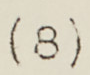(8)
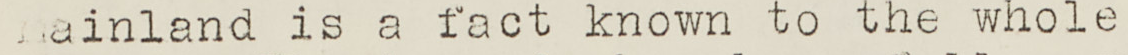mainland is a fact known to the whole
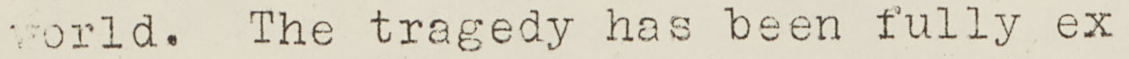world. The tragedy has been fully ex
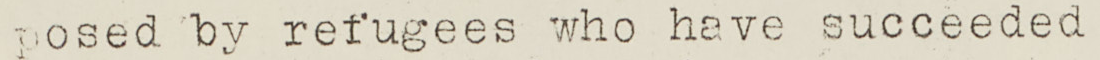posed by refugees who have succeeded
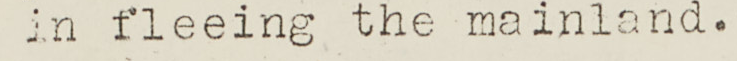in fleeing the mainland.
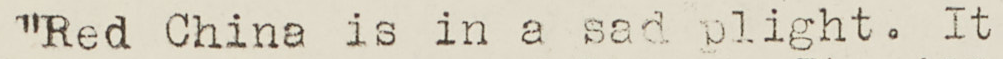"Red China is in a sad plight. It
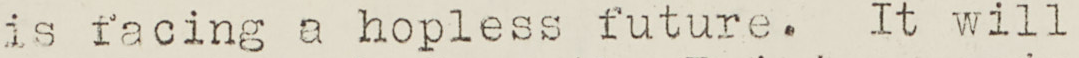is facing a hopless future. It will
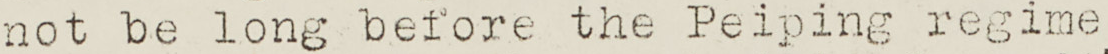not be long before the Peiping regime
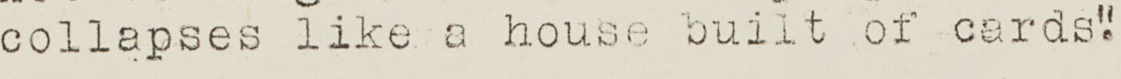collapses like a house built of cards".
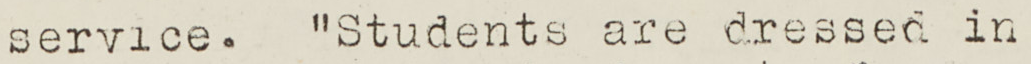service. "Students are dressed in
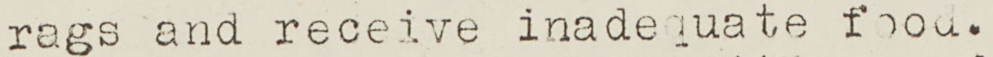rags and receive inadequate food.
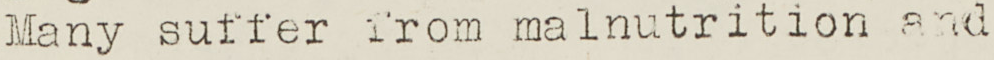Many suffer from malnutrition and
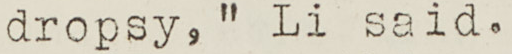dropsy," Li said.
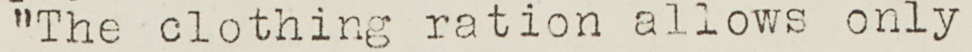"The clothing ration allows only
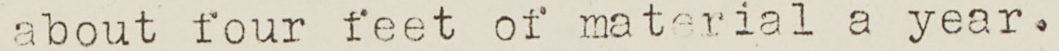about four feet of material a year.
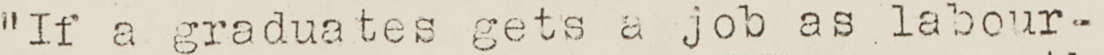"If a graduates gets a job as labour-
